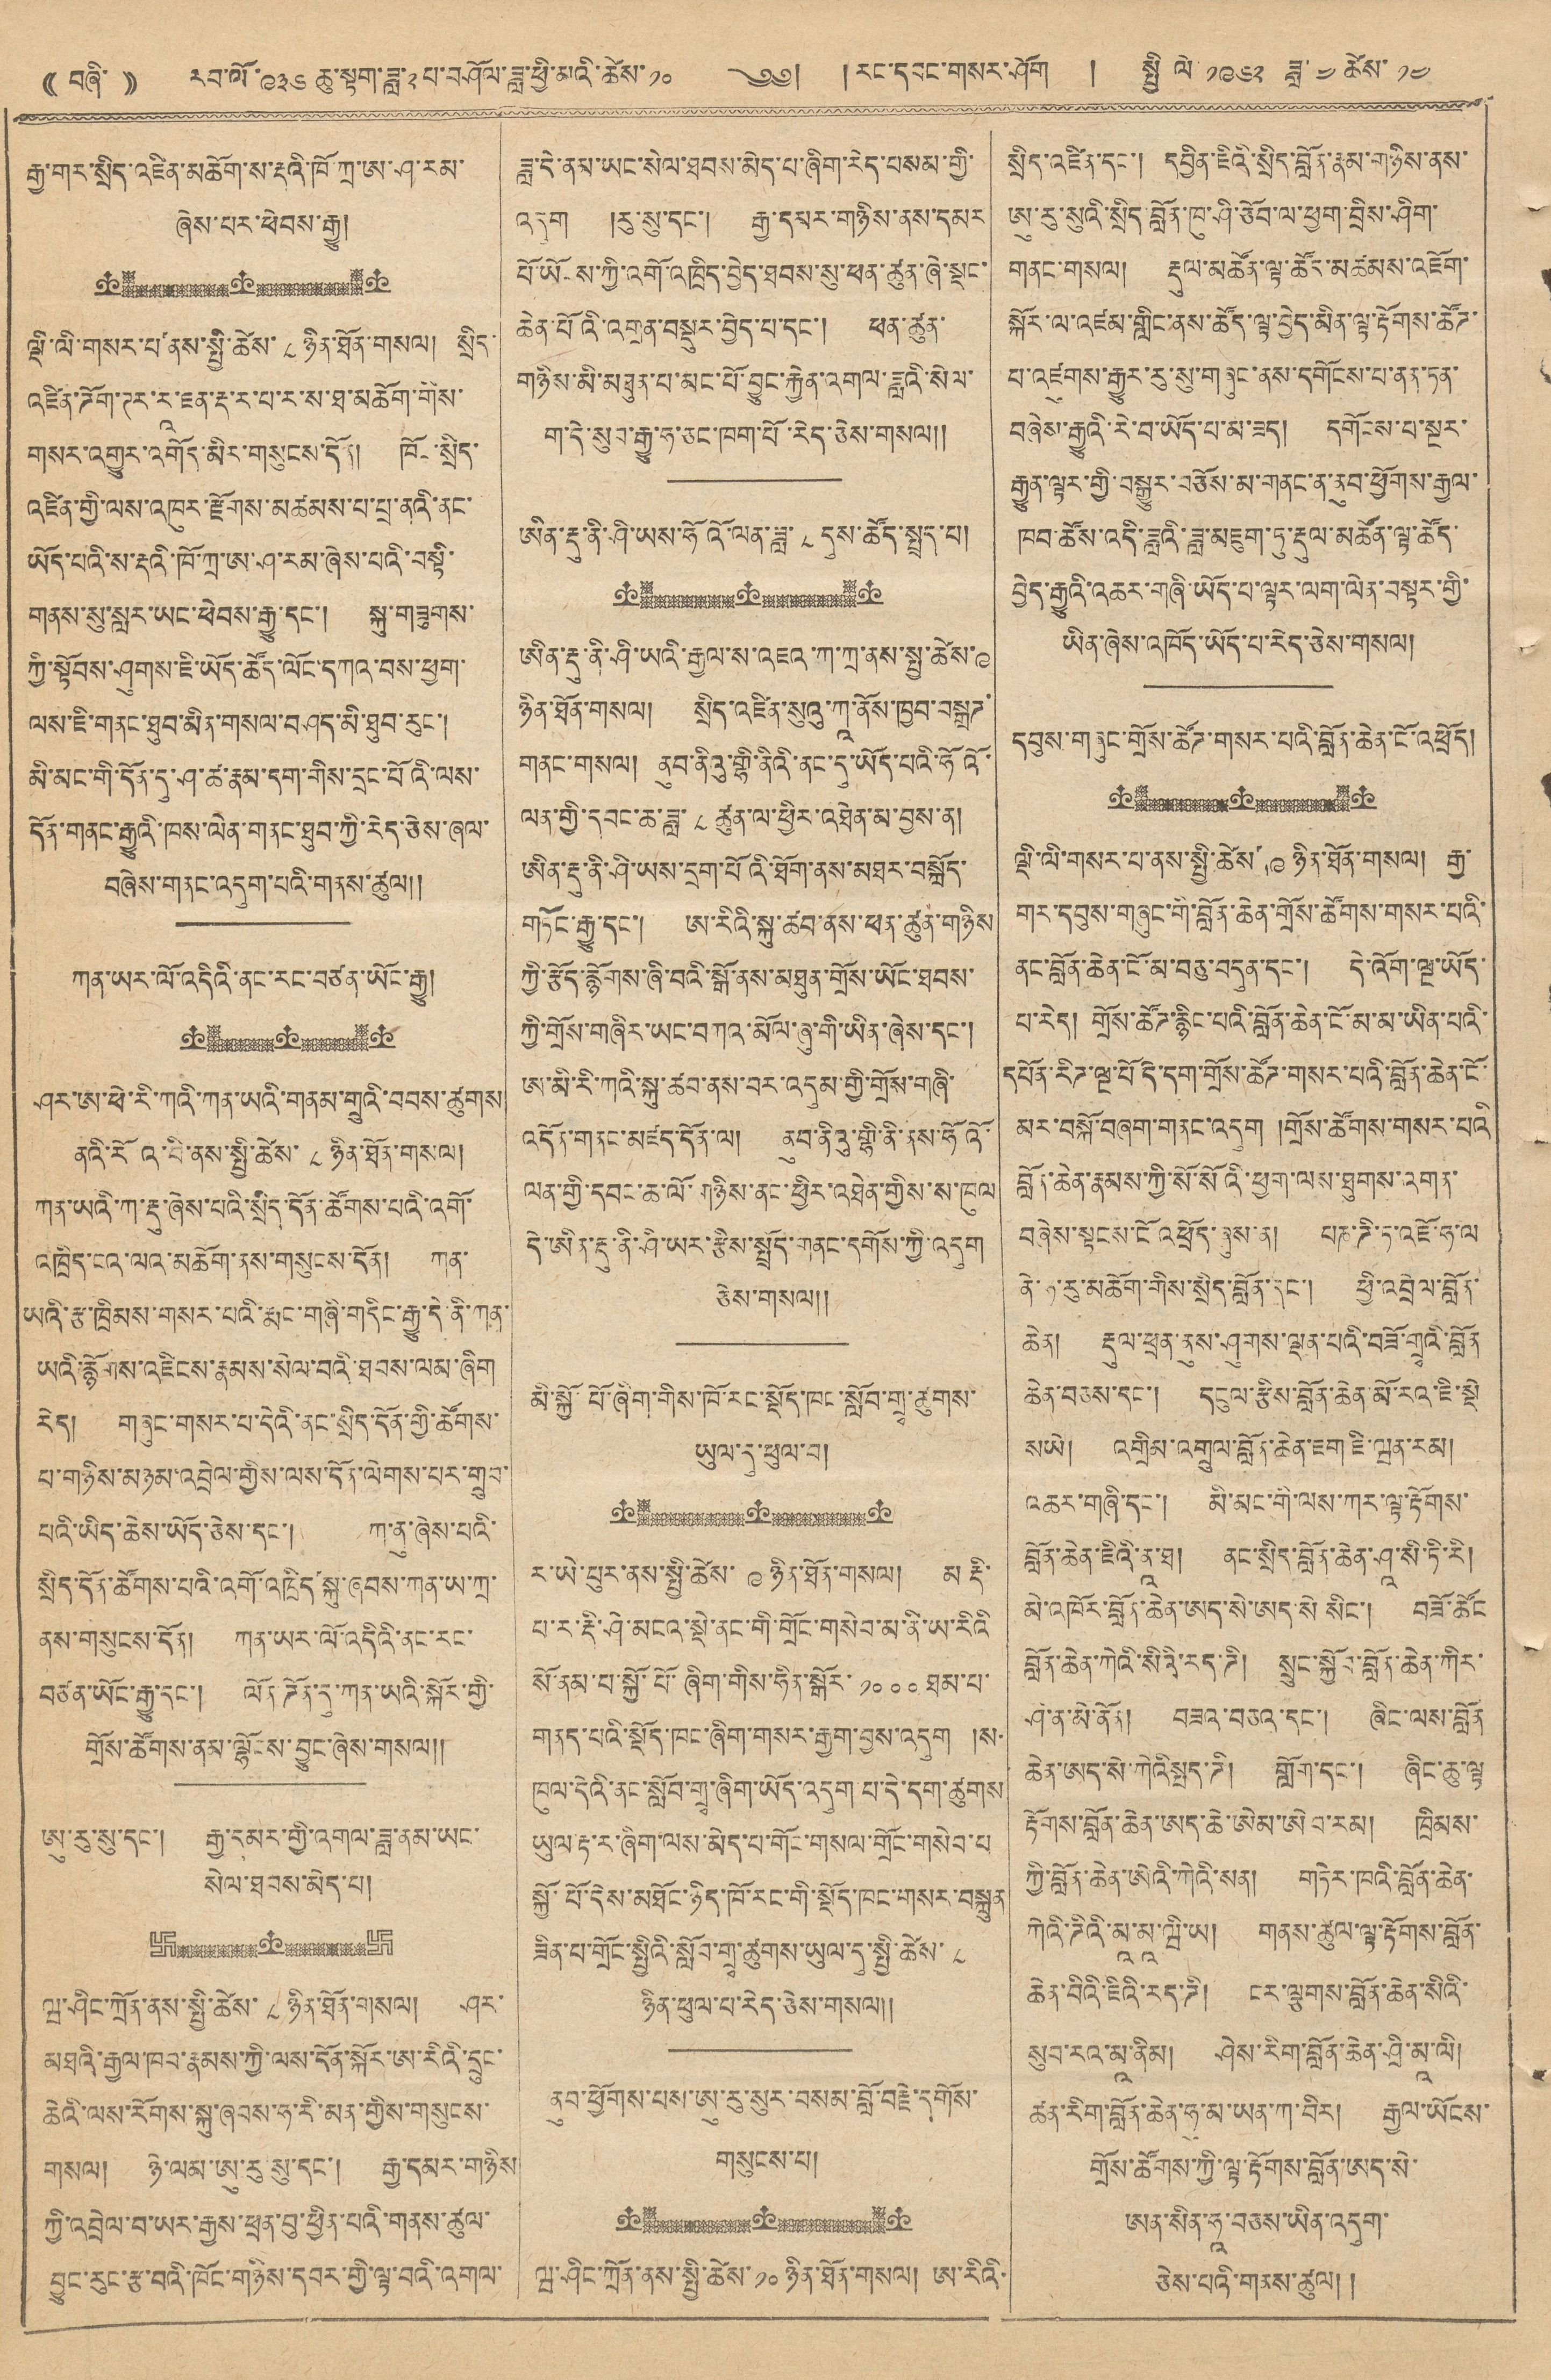(( བཞི་ )) རབ་ལོ་ ༩༣༦ ཆུ་སྟག་ཟླ་༢པ་བཤོལ་ཟླ་ཕྱི་མའི་ཚེས་ ༡༠ ༄༅། །རང་དབང་གསར་ཤོག ། སྤྱི ལོ ༡༩༦༢ ཟླ་ ༤ ཚེས་ ༡༤
རྒྱ་གར་སྲིད་འཛིན་མཆོག་ས་རྡའི་ཁོ་ཀྲ་ཨ་ཤ་རམ་
ཞེས་པར་ཕེབས་རྒྱུ།
ལྡི་ལི་གསར་པ་ནས་སྤྱི་ཚེས་ ༨ ཉིན་ཐོན་གསལ། སྲིད་
འཛིན་ཌོག་ཊར་ར་ཇན་རྡ་ར་པ་ར་ས་ཐ་མཆོག་གིས་
གསར་འགྱུར་འགོད་མིར་གསུངས་དོན། ཁོང་སྲིད་
འཛིན་གྱི་ལས་འཁུར་རྫོགས་མཚམས་པ་པྲ་ནའི་ནང་
ཡོད་པའི་ས་རྡའི་ཁོ་ཀྲ་ཨ་ཤ་རམ་ཞེས་པའི་བསྟི་
གནས་སུ་སླར་ཡང་ཕེབས་རྒྱུ་དང་། སྐུ་གཟུགས་
ཀྱི་སྟོབས་ཤུགས་ཇི་ཡོད་ཚོད་ལོང་དཀའ་བས་ཕྱག་
ལས་ཇི་གནང་ཐུབ་མིན་གསལ་བཤད་མི་ཐུབ་རུང་།
མི་མང་གི་དོན་དུ་ཤ་ཚ་རྣམ་དག་གིས་དྲང་པོའི་ལས་
དོན་གནང་རྒྱུའི་ཁས་ལེན་གནང་ཐུབ་ཀྱི་རེད་ཅེས་ཞལ་
བཞེས་གནང་འདུག་པའི་གནས་ཚུལ།།
ཟླ་དེ་ནམ་ཡང་སེལ་ཐབས་མེད་པ་ཞིག་རེད་བསམ་གྱི་
འདུག །རུ་སུ་དང་། རྒྱ་དམར་གཉིས་ནས་དམར
པོ་ཡོངས་ཀྱི་འགོ་འཁྲིད་བྱེད་ཐབས་སུ་ཕན་ཚུན་ཞེ་སྡང་
ཆེན་པོའི་འགྲན་བསྡུར་བྱེད་པ་དང་། ཕན་ཚུན་
གཉིས་མི་མཐུན་པ་མང་པོ་བྱུང་རྐྱེན་འགལ་ཟླའི་སེལ་
ག་དེ་སུབ་རྒྱུ་ཧ་ཅང་ཁག་པོ་རེད་ཅེས་གསལ།།
ཨིན་རྡུ་ནི་ཤི་ཡས་ཧོའོ་ལན་ཟླ་ ༨ དུས་ཚོད་སྤྲད་པ།
སྲིད་འཛིན་དང་། དབྱིན་ཇིའི་སྲིད་བློན་རྣམ་གཉིས་ནས་
ཨུ་རུ་སུའི་སྲིད་བློན་ཁུ་ཤི་ཅོབ་ལ་ཕྱག་བྲིས་ཤིག་
གནང་གསལ། རྡུལ་མཚོན་ལྟ་ཚོར་མཚམས་འཇོག་
སྐོར་ལ་འཛམ་གླིང་ནས་ཚོད་ལྟ་བྱེད་མིན་ལྟ་རྟོགས་ཚོཌ་
པ་འཛུགས་རྒྱུར་རུ་སུ་གཞུང་ནས་དགོངས་པ་ནན་ཏན་
བཞེས་རྒྱུའི་རེ་བ་ཡོད་པ་མ་ཟད། དགོངས་པ་སྔར་
རྒྱུན་ལྟར་གྱི་བསྒྱུར་བཅོས་མ་གནང་ན་ནུབ་ཕྱོགས་རྒྱལ་
ཁབ་ཚོས་འདི་ཟླའི་ཟླ་མཇུག་ཏུ་རྡུལ་མཚོན་ལྟ་ཚོད་
བྱེད་རྒྱུའི་འཆར་གཞི་ཡོད་པ་ལྟར་ལག་ལེན་བསྟར་གྱི་
ཡིན་ཞེས་འཁོད་ཡོད་པ་རེད་ཅེས་གསལ།
དབུས་གཞུང་གྲོས་ཚོཊ་གསར་པའི་བློན་ཆེན་ངོ་འཕྲོད།
ཀན་ཡར་ལོ་འདིའི་ནང་རང་བཙན་ཡོང་རྒྱུ།
ཤར་ཨེ་ཕེ་རི་ཀའི་ཀན་ཡའི་གནམ་གྲུའི་བབས་ཚུགས
ནའི་རོའ་བི་ནས་སྤྱི་ཚེས་ ༨ ཉིན་ཐོན་གསལ།
ཀན་ཡའི་ཀ་རྡུ་ཞེས་པའི་སྲིད་དོན་ཚོགས་པའི་འགོ་
འཁྲིད་ངའ་ལའ་མཆོག་ནས་གསུངས་དོན། ཀན་
ཡའི་རྩ་ཁྲིམས་གསར་པའི་རྨང་གཞི་གདིང་རྒྱུ་དེ་ནི་ཀན་
ཡའི་རྙོགས་འཛིངས་རྣམས་སེལ་བའི་ཐབས་ལམ་ཞིག
རེད། གཞུང་གསར་པ་དེའི་ནང་སྲིད་དོན་གྱི་ཚོགས་
པ་གཉིས་མཉམ་འབྲེལ་གྱིས་ལས་དོན་ལེགས་པར་གྲུབ་
པའི་ཡིད་ཆེས་ཡོད་ཅེས་དང་། ཀ་ནུ་ཞེས་པའི་
སྲིད་དོན་ཚོགས་པའི་འགོ་འཁྲིད་སྐུ་ཞབས་ཀན་ཡ་ཀྲ་
ནས་གསུངས་དོན། ཀན་ཡར་ལོ་འདིའི་ནང་རང་
བཙན་ཡོང་རྒྱུ་དང་། ལོན་ཌོན་དུ་ཀན་ཡའི་སྐོར་གྱི་
གྲོས་ཚོགས་ནམ་ལྷོངས་བྱུང་ཞེས་གསལ།།
ཨུ་རུ་སུ་དང་། རྒྱ་དམར་གྱི་འགལ་ཟླ་ནམ་ཡང་
སེལ་ཐབས་མེད་པ།
ཝ་ཤིང་ཀྲོན་ནས་སྤྱི་ཚེས་ ༨ ཉིན་ཐོན་གསལ། ཤར་
མཐའི་རྒྱལ་ཁབ་རྣམས་ཀྱི་ལས་དོན་སྐོར་ཨ་རིའི་དྲུང་
ཆེའི་ལས་རོགས་སྐུ་ཞབས་ཧ་རི་མན་གྱིས་གསུངས་
གསལ། ཉེ་ལམ་ཨུ་རུ་སུ་དང་། རྒྱ་དམར་གཉིས་
ཀྱི་འབྲེལ་བ་ཡར་རྒྱས་ཕྲན་བུ་ཕྱིན་པའི་གནས་ཚུལ་
བྱུང་རུང་རྩ་བའི་ཁོང་གཉིས་དབར་གྱི་ལྟ་བའི་འགུལ་
ཨིན་རྡུ་ནི་ཤི་ཡའི་རྒྱལ་ས་འཇའ་ཀ་ཀྲ་ནས་སྤྱི་ཚེས་ ༩
ཉིན་ཐོན་གསལ། སྲིད་འཛིན་སུའུ་ཀཱ་ནོས་ཁྱབ་བསྒྲཌ་
གནང་གསལ། ནུབ་ནིའུ་གྷི་ནིའི་ནང་དུ་ཡོད་པའི་ཧོའོ་
ལན་གྱི་དབང་ཆ་ཟླ་ ༨ ཚུན་ལ་ཕྱིར་འཐེན་མ་བྱས་ན།
ཨིན་རྡུ་ནི་ཤི་ཡས་དྲག་པོའི་ཐོག་ནས་མཐར་བསྐྲོད་
གཏོང་རྒྱུ་དང་། ཨ་རིའི་སྐུ་ཚབ་ནས་ཕན་ཚུན་གཉིས
ཀྱི་རྩོད་རྙོགས་ཞི་བའི་སྒོ་ནས་མཐུན་གྲོས་ཡོང་ཐབས་
ཀྱི་གྲོས་གཞིར་ཡང་བཀའ་མོལ་ཞུ་གི་ཡིན་ཞེས་དང་།
ཨ་མི་རི་ཀའི་སྐུ་ཚབ་ནས་བར་འདུམ་གྱི་གྲོས་གཞི་
འདོན་གནང་མཛད་དོན་ལ། ནུབ་ནིའུ་གྷི་ནི་ནས་ཧོའོ་
ལན་གྱི་དབང་ཆ་ལོ་གཉིས་ནང་ཕྱིར་འཐེན་གྱིས་ས་ཁུལ
དེ་ཨིན་རྡུ་ནི་ཤི་ཡར་རྩིས་སྤྲོད་གནང་དགོས་ཀྱི་འདུག
ཅེས་གསལ།།
མི་སྐྱོ་པོ་ཞིག་གིས་ཁོ་རང་སྡོད་ཁང་སློབ་གྲྭ་ཚུགས་
ཡུལ་དུ་ཕུལ་བ།
ར་ཡེ་པུར་ནས་སྤྱི་ཚེས་ ༩ ཉིན་ཐོན་གསལ། མ རྡི་
པ་ར་རྡི་ཤེ་མངའ་སྡེ་ནང་གི་གྲོང་གསེབ་མ་ནི་ཡ་རིའི་
སོ་ནམ་པ་སྐྱོ་པོ་ཞིག་གིས་ཧིན་སྒོར་ ༡༠༠༠ ཐམ་པ་
གནད་པའི་སྡོད་ཁང་ཞིག་གསར་རྒྱག་བྱས་འདུག །ས་
ཁུལ་དེའི་ནང་སློབ་གྲྭ་ཞིག་ཡོད་འདུག་པ་དེ་དག་ཚུགས
ཡུལ་རྟ་ར་ཞིག་ལས་མེད་པ་གོང་གསལ་གྲོང་གསེབ་པ
སྐྱོ་པོ་དེས་མཐོང་ཉིད་ཁོ་རང་གི་སྡོད་ཁང་གསར་བསྐྲུན
ཟིན་པ་གྲོང་སྤྱིའི་སློབ་གྲྭ་ཚུགས་ཡུལ་དུ་སྤྱི་ཚེས་ ༨
ཉིན་ཕུལ་པ་རེད་ཅེས་གསལ།།
ནུབ་ཕྱོགས་པས་ཨུ་རུ་སུར་བསམ་བློ་བརྗེ་དགོས་
གསུངས་པ།
ཝ་ཤིང་ཀྲོན་ནས་སྤྱི་ཚེས་ ༡༠ ཉིན་ཐོན་གསལ། ཨ་རིའི་
ལྡི་ལི་གསར་པ་ནས་སྤྱི་ཚེས་ ༩ ཉིན་ཐོན་གསལ། རྒྱ་
གར་དབུས་གཞུང་གི་བློན་ཆེན་གྲོས་ཚོགས་གསར་པའི་
ནང་བློན་ཆེན་ངོ་མ་བཅུ་བདུན་དང་། དེ་འོག་ལྔ་ཡོད་
པ་རེད། གྲོས་ཚོཌ་རྙིང་པའི་བློན་ཆེན་ངོ་མ་མ་ཡིན་པའི་
དཔོན་རིཌ་ལྔ་པོ དེ་དག་གྲོས་ཚོཊ་གསར་པའི་བློན་ཆེན་ངོ་
མར་བསྐོ་བཞག་གནང་འདུག །གྲོས་ཚོགས་གསར་པའི
བློན་ཆེན་རྣམས་ཀྱི་སོ་སོའི་ཕྱག་ལས་ཐུགས་འགན་
བཞེས་སྟངས་ངོ འཕྲོད་ཞུས་ན། པཎ་ཌི་ཏ་འཇོ་ཧ་ལ
ནེ་ཧ་རུ་མཆོག་གིས་སྲིད་བློན་དང་། ཕྱི་འབྲེལ་བློན་
ཆེན། རྡུལ་ཕྲན་ནུས་ཤུགས་ལྡན་པའི་བཟོ་གྲྭའི་བློན
ཆེན་བཅས་དང་། དངུལ་རྩིས་བློན་ཆེན་མོ་རའ་ཇི་སྡེ་
སཡེ། འགྲིམ་འགྲུལ་བློན་ཆེན་ཇག ཇི་ཝན་རམ།
འཆར་གཞི་དང་། མི་མང་གི་ལས་ཀར་ལྟ་རྟོགས་
བློན་ཆེན་ཇིའི་ནཱ་ཐ། ནང་སྲིད་བློན་ཆེན་ཤཱ་སི་ཏི་རི།
མེ་འཁོར་བློན་ཆེན་ཨད་སེ་ཨད་སེ སིང་། བཟོ་ཚོང
བློན་ཆེན་ཀེའི་སིའི་རད་ཌི། སྲུང་སྐྱོབ་བློན་ཆེན་ཀིར་
ཤི་ན་མེ་ནོན། བཟའ་བཅའ་དང་། ཞིང་ལས་བློན
ཆེན་ཨད་སེ་ཀེའིསྤད་ཌི། གློག་དང་། ཞིང་ཆུ་ལྟ
རྟོགས་བློན་ཆེན་ཨད་ཆེ་ཨེམ་ཨེབ་རམ། ཁྲིམས་
ཀྱི་བློན་ཆེན་ཨེའི་ཀེའི་སན། གཏེར་ཁའི་བློན་ཆེན་
ཀེའི་ཌིའི་མཱ་མ་ཝི་ཡ། གནས་ཚུལ་ལྟ་རྟོགས་བློན་
ཆེན་བིའི་ཇིའི་རད་ཌི། ངར་ལྕགས་བློན་ཆེན་སིའི་
སུབ་རའ་མཱ་ནིམ། ཤེས་རིག་བློན་ཆེན་ཤྲི་མཱ་ལི།
ཚན་རིག་བློན་ཆེན་ཧུ་མ་ཡན་ཀ་བིར། རྒྱལ་ཡོངས་
གྲོས་ཚོགས་ཀྱི་ལྟ་རྟོགས་བློན་ཨད་སེ་
ཨན་སིན་ཧཱ་བཅས་ཡིན་འདུག་
ཅེས་པའི་གནས་ཚུལ། །
